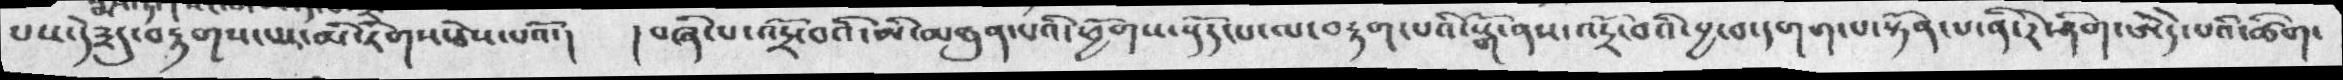པས་དེ༣དུ་བརྟགས་པར་མི་རིགས་ཅེས་པའོ་།  ། བཞི་པ་འདྲོ་བའི་མི་མཐུན་པའི་ཕྱོགས་འདོད་པ་ལ་བརྟག་པའི་སྒོ་ནས་འདྲོ་བའི་བྱ་བ་དགག་པ་སྟོན་པ་ནི་རེ་ཤིག་ཨེ་པའི་ཚིག་
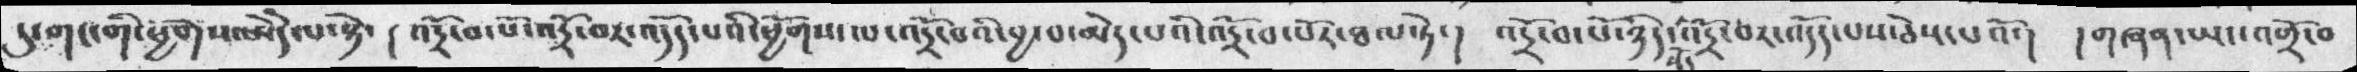དུ་གང་གི་ཕྱོགས་ཨེདེ་པ་སྟེ་།  ། འདྲོ་བ་པོ་འདྲོ་བར་འདོད་པའི་ཕྱོགས་ལ་འདྲོ་བའི་བྱ་བ་མེད་པའི་འདྲོ་བ་པར་ཐལ་ཏེ་།  འདྲོ་བ་པོ་ཉིད་ནོད་འདྲོ་བར་འདོད་པས་ཅེས་པའོ་།   །གཞན་ཡང་འགྲོ་བ
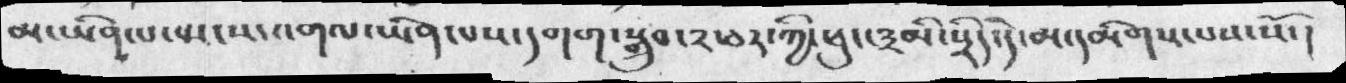མ་ཡིན་པ་སྤངས་འགལ་ཡིན་པས་དགག་སྒྲུབ་༢་ཅར་ཀྱི་ཕུང་༣མི་སྲིད་དེ་མ་དམིགས་པས་སོ་།
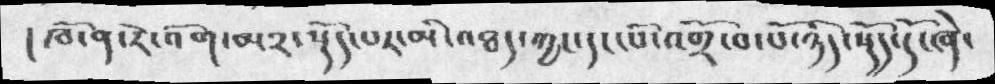།ཁོ་ན་རེ་འོག་མ༢་སྡོད་པར་མི་འཐད་ཀྱང་དང་པོ་འགྲོ་བ་པོ་ཉིད་སྡོད་དོ་ཞེ་
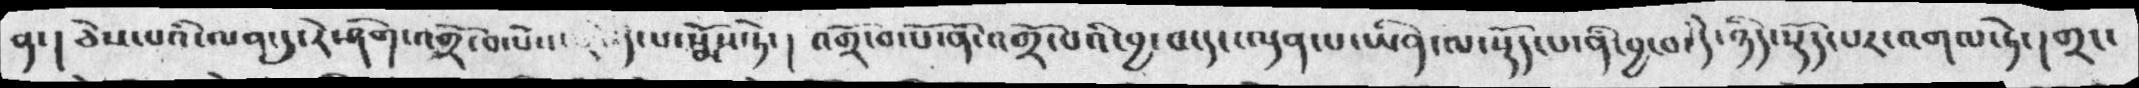ན་།  ཅེས་པའི་ལན་དུ་རེ་ཤིག་འགྲོ་བ་པོའ་  ད་པ་སྨོས་ཏེ་།  འགྲོ་བ་པོ་ནི་འགྲོ་བའི་བྱ་བ་དང་ལྡན་པ་ཡིན་ལ་སྡོད་པ་ནི་བྱ་བ་དེ་ཉིད་སྡོད་པར་འགལ་ཏེ་། གྲང་
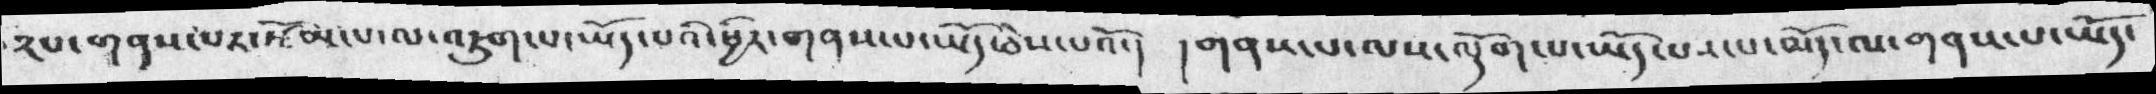༢པ་གནས་པར་རྩོམ་པ་ལ་འཇུག་པ་ཡོད་པའི་ཕྱིར་གནས་པ་ཡོད་ཅེས་པའོ་།  །གནས་པ་ལས་ལྡོག་པ་ཡོད་པས་པ་མོད་ལ་གནས་པ་ཡོད་
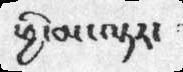ཕྱི་མ་ལྟར་
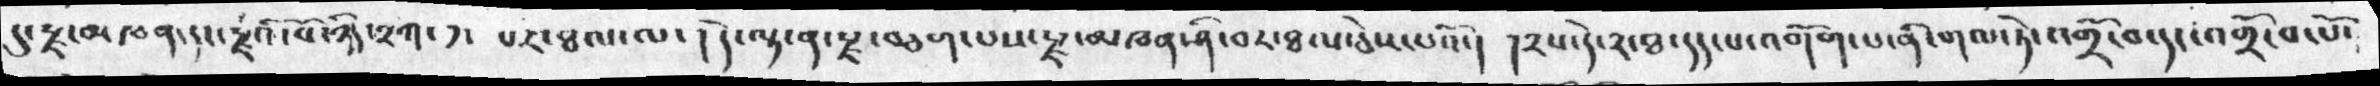དུ་རྫ་མཁན་དང་རྫའི་པོ་ཉི་༢ཀ་༡་པར་ཐལ་ལ་།   དེ་ལྟ་ན་རྫ་བཅག་པས་རྫ་མཁན་ཤི་བར་ཐལ་ཅེས་པའོ་།  །༢པ་དེ་༢་ཐ་དད་པ་འགོག་པ་ནི་གལ་ཏེ་འགྲོ་བ་དང་འགྲོ་བ་པོ་
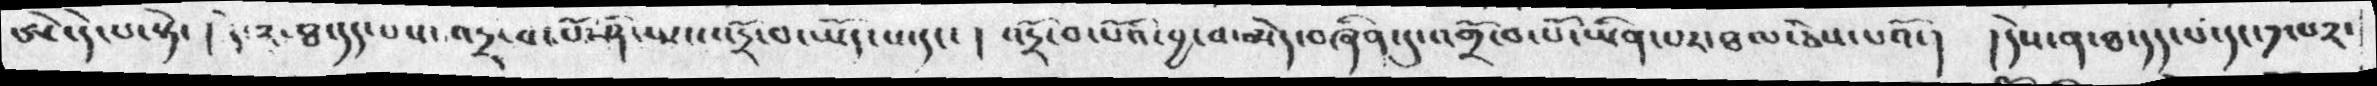ཨེ་དེ་པ་སྟེ་།  དེ་༢་ཐ་དད་པས་འདྲ་བ་པོ་ཤི་སྤངས་འདྲོ་བ་ཡོད་པ་དང་།  འདྲོ་བ་པོའི་བྱ་བ་མེད་བཞིན་དུ་འགྲོ་བ་པོ་ཡིན་པར་ཐལ་ཅེས་པའོ་།   །དེས་ན་ཐ་དད་པ་དང་༡་པ༢་
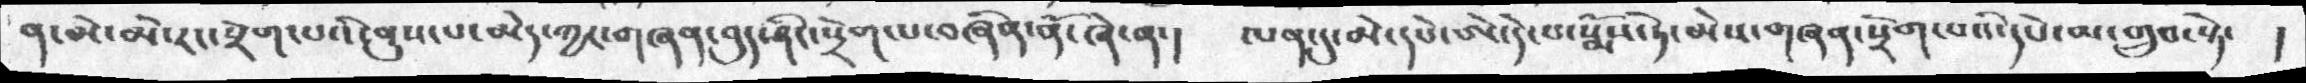ན་མེ་མེ་རང་སྲོག་པའི་ནུས་མ་མེད་ཀྱང་གཞན་བུད་ཤིང་སྲེག་པ་བཞིན་ནོ་ཞེ་ན་།   ལན་དུ་མེ་དཔེ་ཨེ་དེ་པ་སྨོས་ཏེ་མེས་གཞན་སྲོག་པའི་དཔེ་མ་གྲུབ་སྟེ་  །
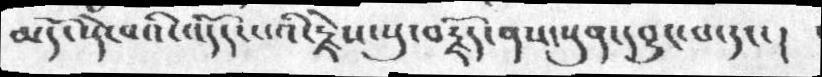མདོ་སྡེ་བའི་འདོད་པའི་རྗེས་སུ་བརྗོད་ནས་སུན་དབྱུང་བ་དང་།
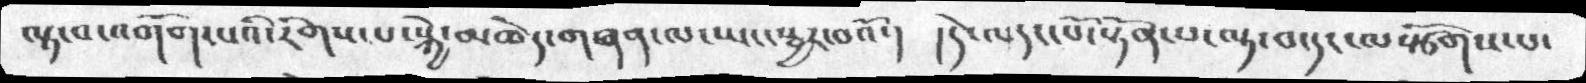ལྟ་བ་འགོག་པི་རིགས་པ་སྐྱེ་མཆེད་གཞན་ལ་ཡང་སྦྱར་བའོ་།  །དེ་ལ་དང་པོ་སྟོན་པ་ལྟ་བ་དང་ལསྩོགས་པ་
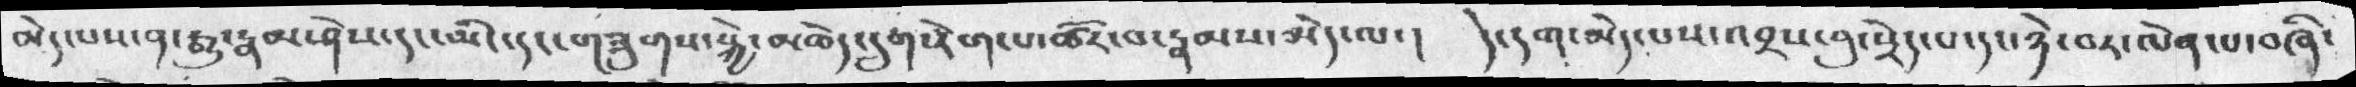མེད་པས་ན་རྒྱུ་རྣམ་ཤེས་དང་མིང་དང་གཟུགས་སྐྱེ་མཆེད་དྲུག་རེག་པ་ཚོར་བ་རྣམས་མེད་ལ་།  དེ་དག་མེད་པས་འབྲས་བུ་སྲེད་པ་དང་ཉེ་བར་ལེན་པ་བཞི་
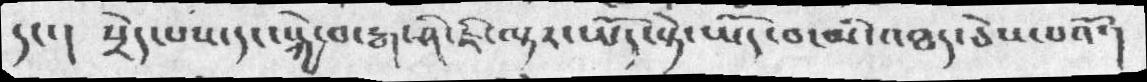དང་།  སྲེད་པས་དང་སྐྱེ་བ་རྒ་ཤི་ཇི་ལྟར་ཡོད་སྟེ་ཡོད་བ་མི་འཐད་ཅེས་པའོ་།
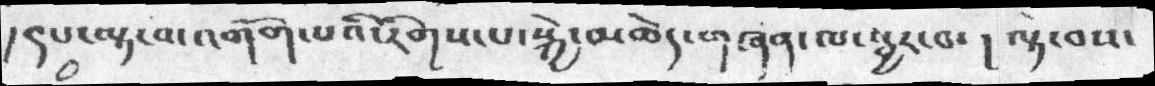།༩པ་ལྟ་བ་འགོག་པའི་རིགས་པ་སྐྱེ་མཆེད་གཞན་ལ་སྦྱར་བ་། ལྟ་བས་
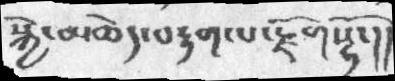སྐྱེ་མཆེད་བརྟག་པ་རྫོསྷོ་།།
